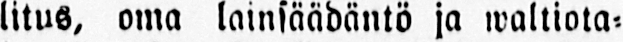litus, oma lainsäädäntö ja waltiota-
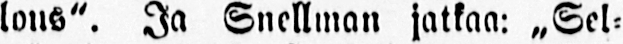lous". Ja Snellman jatkaa: „Sel-
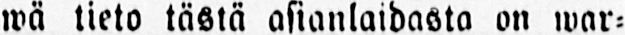wä tieto tästä asianlaidasta on war-
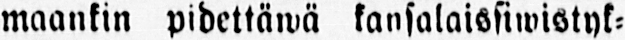maankin pidettäwä kansalaissiwistyk-
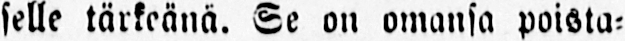selle tärkeänä. Se on omansa poista-
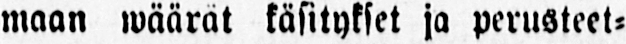maan wäärät käsitykset ja perusteet-
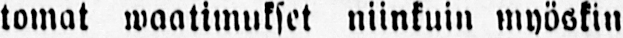tomat waatimukset niinkuin myöskin
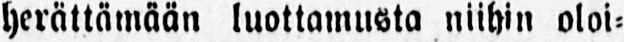herättämään luottamusta niihin oloi-
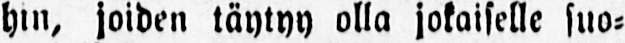hin, joiden täytyy olla jokaiselle suo-
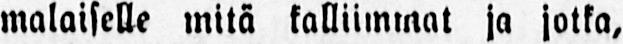malaiselle mitä kalliimmat ja jotka,
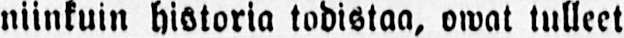niinkuin historia todistaa, owat tulleet
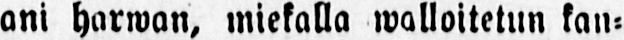ani harwan, miekalla walloitetun kan-
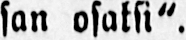san osaksi".
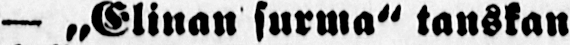— ˶ Elinan surma" tanskan-
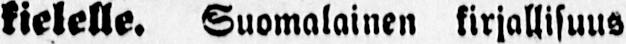kielelle. Suomalainen kirjallisuus
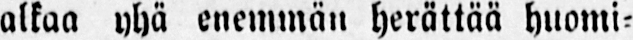alkaa yhä enemmän herättää huomi-
